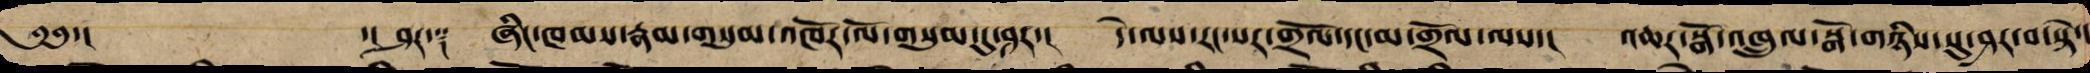༄༅་། ་། ཤར་༑ ཞིང་ཁམས་རྣམ་གསུམ་འཁོར་ལོ་གསུམ་དུ་ཤར་། དེ་ལས་རང་སར་གྲོལ་དང་མ་གྲོལ་ལས་། འཆར་སྒོ་འཁྲུལ་སྒོ་གཉིས་སུ་ཤར་བ་སྟེ་།
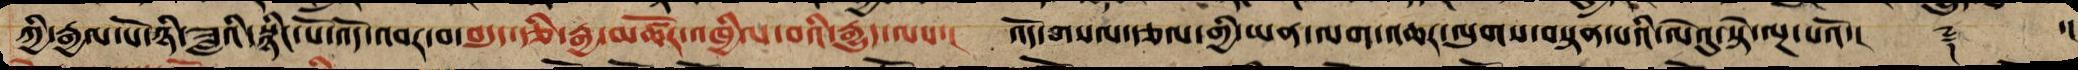ཀྱི་རྒྱལ་པོ་ཉི་ཟླའི་སྙིང་པོ་འོད་འབར་བ་བདུད་རྩི་རྒྱ་མཚོར་འཁྱིལ་པའི་རྒྱུད་ལས་། འོད་གསལ་རྩལ་གྱི་ཡན་ལག་འཆར་ལུགས་བསྟན་པའི་ལེའུ་སྟེ་ལྔ་པའོ་།། ༈ ་།
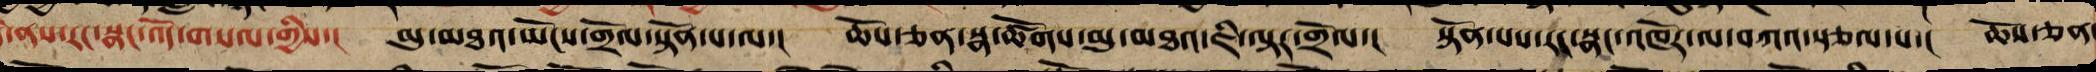་ནས་རང་སྣང་འོད་གསལ་གྱིས་། མུ་མཐའ་ཡོངས་གྲོལ་སྟོན་པ་ལ་། ཆོས་ཅན་སྣ་ཚོགས་མུ་མཐའ་ཇི་ལྟར་གྲོལ་། སྟོན་པས་རང་སྣང་འཁོར་ལ་བཀའ་སྩལ་པ་། ཆོས་ཅན་
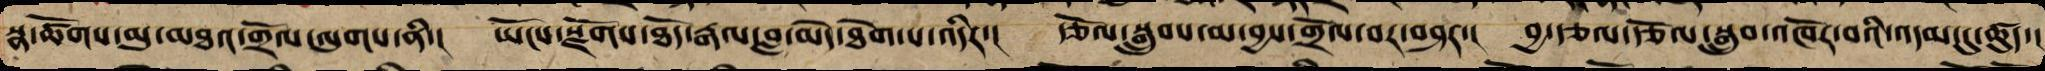སྣ་ཚོགས་མུ་མཐའ་གྲོལ་ལུགས་ནི་། ཡོངས་རྫོགས་ཐོད་རྒལ་བླ་མེད་ཐེག་པ་འདིར་། རྩོལ་སྒྲུབས་མ་བྱས་གྲོལ་བར་བཤད་། བྱ་རྩལ་རྩོལ་སྒྲུབ་འཁོར་བའི་འདམ་དུ་ཚུད་།
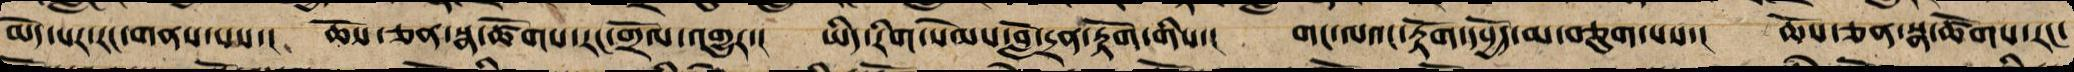མེད་པར་རང་གནས་པས་། ཆོས་ཅན་སྣ་ཚོགས་རང་གྲོལ་འགྱུར་། ཡིད་རིག་སེམས་བློ་དྲན་རྟོག་གིས་། གང་ལའང་རྟོག་དཔྱོད་མ་བཅུག་པས་། ཆོས་ཅན་སྣ་ཚོགས་རང་
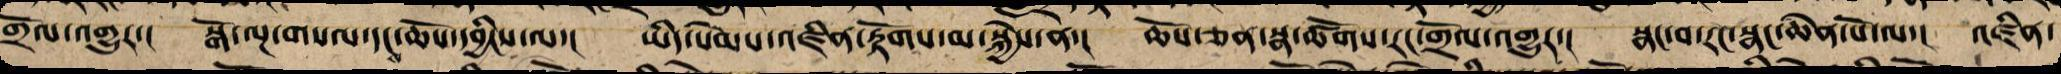གྲོལ་འགྱུར་། སྒོ་ལྔ་གསལ་དང་ཆོས་དབྱིངས་ལ་། ཡིད་སེམས་འཛིན་རྟོགས་མ་སྐྱེས་ན་། ཆོས་ཅན་སྣ་ཚོགས་རང་གྲོལ་འགྱུར་། སྣང་བ་རང་སྣང་ཆེན་པོ་ལ་། འཛིན་
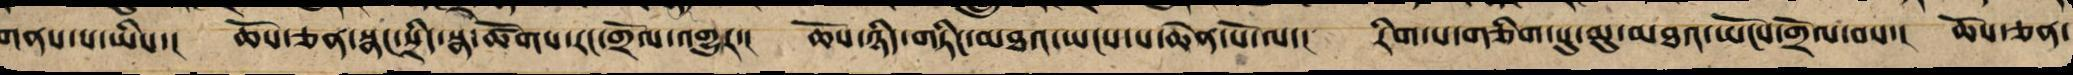གནས་པ་ཡིས་། ཆོས་ཅན་སྣང་སྲིད་སྣ་ཚོགས་རང་གྲོལ་འགྱུར་། ཆོས་ཉིད་གཏིང་མཐའ་ཡངས་པ་ཆེན་པོ་ལ་། རིག་པ་གཅིག་པུ་མུ་མཐའ་ཡོངས་གྲོལ་བས་། ཆོས་ཅན་
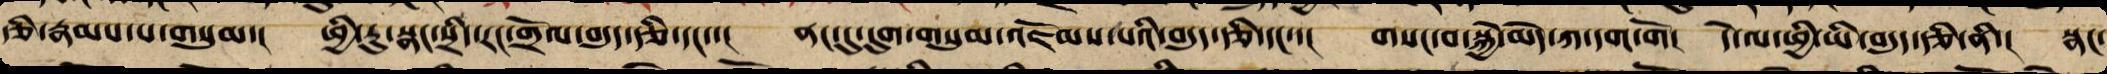རྩི་རྣམས་པ་གསུམ་། ཕྱི་རུ་སྣང་སྲིད་རང་གྲོལ་བདུད་རྩི་དང་་། ནང་དུ་དུག་གསུམ་འཇོམས་པའི་བདུད་རྩི་དང་་། གསང་བ་སྐྱེ་མེད་ཀ་དག་གོ། དེ་ལ་ཕྱི་ཡི་བདུད་རྩི་ནི་། སྣང་
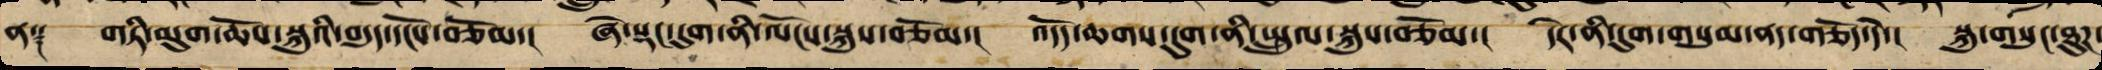ན༑ གཏི་མུག་ཆོས་སྐུའི་བདུད་དངོས་བཅོམ་། ཞེ་སྡང་དུག་ནི་ལོངས་སྐུས་བཅོམ་། འདོད་ཆགས་དུག་ནི་སྤྲུལ་སྐུས་བཅོམ་། དེར་ནི་དུག་གསུམ་ནད་གཅོད་དེ་། སྐུ་གསུང་ཐུཌ་
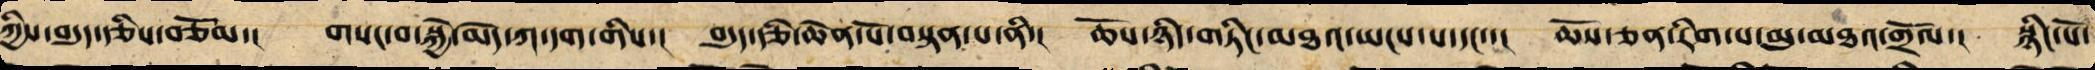ཀྱིས་བདུད་རྩིས་བཅོམ་། གསང་བ་སྐྱེ་མེད་ཀ་དག་གིས་། བདུད་རྩི་ཆེན་པོ་བསྟན་པ་ནི་། ཆོས་ཉིད་གཏིང་མཐའ་ཡངས་པ་དང་་། ཆོས་ཅན་རིག་པ་མུ་མཐའ་གྲོལ་། སྙིང་པོ་
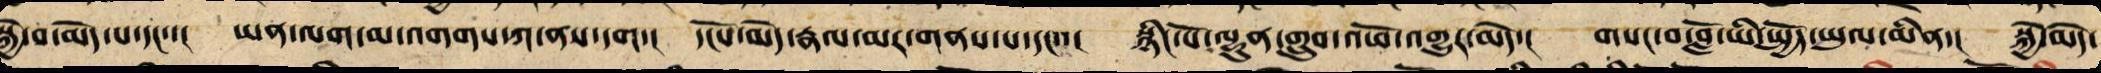སྐྱེ་བ་མེད་པ་དང་་། ཡན་ལག་མ་འགགས་ཀ་ནས་དག་། དངོས་མེད་རྣལ་མར་གནས་པ་དང་་། སྙིང་པོ་ལྷུན་གྲུབ་འཕོ་འགྱུར་མེད་། གསང་བ་བློ་ཡི་སྤྱོད་ཡུལ་མིན་། སྐྱེ་མེད་
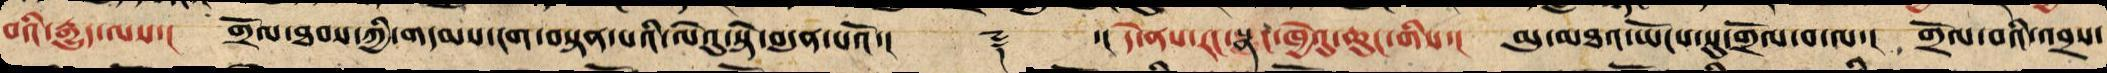བའི་རྒྱུད་ལས་། གྲོལ་ཐབས་ཀྱི་གདམས་ངག་བསྟན་པའི་ལེའུ་སྟེ་བདུན་པའོ་།། ༈ ་། དེ་ནས་རང་སྣང་ཁྱེའུ་ཆུང་གིས་། མུ་མཐའ་ཡོངས་སུ་གྲོལ་བ་ལ་། གྲོལ་བའི་འབྲས་
